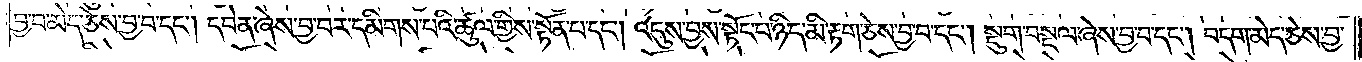བྱ་བ་མེད་ཅེས་བྱ་བ་དང༌། དབེན་ཞེས་བྱ་བར་དམིགས་པའི་ཚུལ་གྱིས་སྟོན་པ་དང༌། འདུས་བྱས་སྟོང་པ་ཉིད་མི་རྟག་ཅེས་བྱ་བ་དང༌། སྡུག་བསྔལ་ཞེས་བྱ་བ་དང༌། བདག་མེད་ཅེས་བྱ་
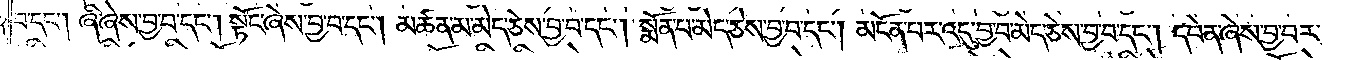བ་དང༌། ཞི་ཞེས་བྱ་བ་དང༌། སྟོང་ཞེས་བྱ་བ་དང༌། མཚན་མ་མེད་ཅེས་བྱ་བ་དང༌། སྨོན་པ་མེད་ཅེས་བྱ་བ་དང༌། མངོན་པར་འདུ་བྱ་བ་མེད་ཅེས་བྱ་བ་དང༌། དབེན་ཞེས་བྱ་བར་
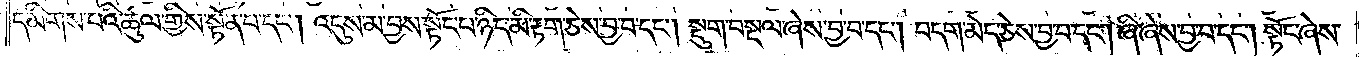དམིགས་པའི་ཚུལ་གྱིས་སྟོན་པ་དང༌། འདུས་མ་བྱས་སྟོང་པ་ཉིད་མི་རྟག་ཅེས་བྱ་བ་དང༌། སྡུག་བསྔལ་ཞེས་བྱ་བ་དང༌། བདག་མེད་ཅེས་བྱ་བ་དང༌། ཞི་ཞེས་བྱ་བ་དང༌། སྟོང་ཞེས་
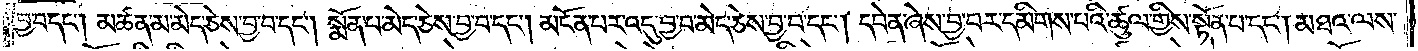བྱ་བ་དང༌། མཚན་མ་མེད་ཅེས་བྱ་བ་དང༌། སྨོན་པ་མེད་ཅེས་བྱ་བ་དང༌། མངོན་པར་འདུ་བྱ་བ་མེད་ཅེས་བྱ་བ་དང༌། དབེན་ཞེས་བྱ་བར་དམིགས་པའི་ཚུལ་གྱིས་སྟོན་པ་དང༌། མཐའ་ལས་
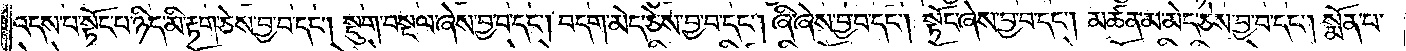འདས་པ་སྟོང་པ་ཉིད་མི་རྟག་ཅེས་བྱ་བ་དང༌། སྡུག་བསྔལ་ཞེས་བྱ་བ་དང༌། བདག་མེད་ཅེས་བྱ་བ་དང༌། ཞི་ཞེས་བྱ་བ་དང༌། སྟོང་ཞེས་བྱ་བ་དང༌། མཚན་མ་མེད་ཅེས་བྱ་བ་དང༌། སྨོན་པ་
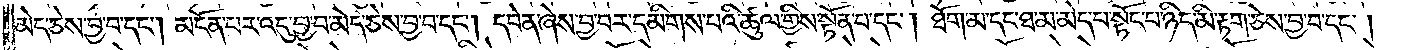མེད་ཅེས་བྱ་བ་དང༌། མངོན་པར་འདུ་བྱ་བ་མེད་ཅེས་བྱ་བ་དང༌། དབེན་ཞེས་བྱ་བར་དམིགས་པའི་ཚུལ་གྱིས་སྟོན་པ་དང༌། ཐོག་མ་དང་ཐ་མ་མེད་པ་སྟོང་པ་ཉིད་མི་རྟག་ཅེས་བྱ་བ་དང༌།
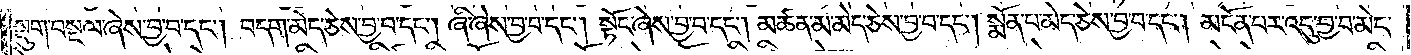སྡུག་བསྔལ་ཞེས་བྱ་བ་དང༌། བདག་མེད་ཅེས་བྱ་བ་དང༌། ཞི་ཞེས་བྱ་བ་དང༌། སྟོང་ཞེས་བྱ་བ་དང༌། མཚན་མ་མེད་ཅེས་བྱ་བ་དང༌། སྨོན་པ་མེད་ཅེས་བྱ་བ་དང༌། མངོན་པར་འདུ་བྱ་བ་མེད་
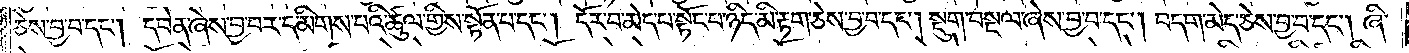ཅེས་བྱ་བ་དང༌། དབེན་ཞེས་བྱ་བར་དམིགས་པའི་ཚུལ་གྱིས་སྟོན་པ་དང༌། དོར་བ་མེད་པ་སྟོང་པ་ཉིད་མི་རྟག་ཅེས་བྱ་བ་དང༌། སྡུག་བསྔལ་ཞེས་བྱ་བ་དང༌། བདག་མེད་ཅེས་བྱ་བ་དང༌། ཞི་
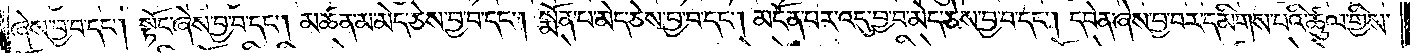ཞེས་བྱ་བ་དང༌། སྟོང་ཞེས་བྱ་བ་དང༌། མཚན་མ་མེད་ཅེས་བྱ་བ་དང༌། སྨོན་པ་མེད་ཅེས་བྱ་བ་དང༌། མངོན་པར་འདུ་བྱ་བ་མེད་ཅེས་བྱ་བ་དང༌། དབེན་ཞེས་བྱ་བར་དམིགས་པའི་ཚུལ་གྱིས་
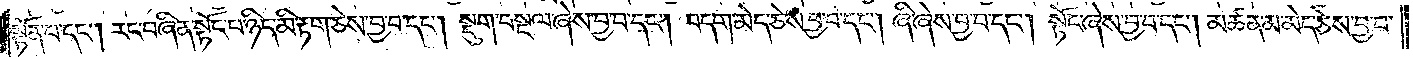སྟོན་པ་དང༌། རང་བཞིན་སྟོང་པ་ཉིད་མི་རྟག་ཅེས་བྱ་བ་དང༌། སྡུག་བསྔལ་ཞེས་བྱ་བ་དང༌། བདག་མེད་ཅེས་བྱ་བ་དང༌། ཞི་ཞེས་བྱ་བ་དང༌། སྟོང་ཞེས་བྱ་བ་དང༌། མཚན་མ་མེད་ཅེས་བྱ་བ་
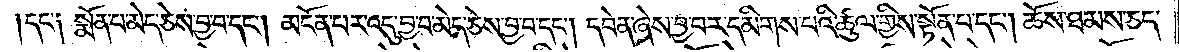དང༌། སྨོན་པ་མེད་ཅེས་བྱ་བ་དང༌། མངོན་པར་འདུ་བྱ་བ་མེད་ཅེས་བྱ་བ་དང༌། དབེན་ཞེས་བྱ་བར་དམིགས་པའི་ཚུལ་གྱིས་སྟོན་པ་དང༌། ཆོས་ཐམས་ཅད་
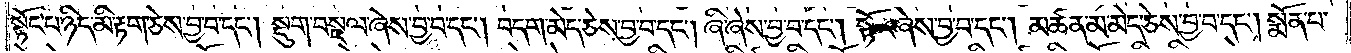སྟོང་པ་ཉིད་མི་རྟག་ཅེས་བྱ་བ་དང༌། སྡུག་བསྔལ་ཞེས་བྱ་བ་དང༌། བདག་མེད་ཅེས་བྱ་བ་དང༌། ཞི་ཞེས་བྱ་བ་དང༌། སྟོང་ཞེས་བྱ་བ་དང༌། མཚན་མ་མེད་ཅེས་བྱ་བ་དང༌། སྨོན་པ་
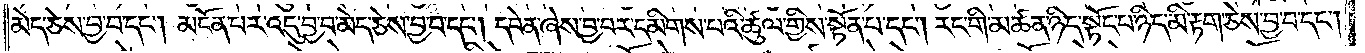མེད་ཅེས་བྱ་བ་དང༌། མངོན་པར་འདུ་བྱ་བ་མེད་ཅེས་བྱ་བ་དང༌། དབེན་ཞེས་བྱ་བར་དམིགས་པའི་ཚུལ་གྱིས་སྟོན་པ་དང༌། རང་གི་མཚན་ཉིད་སྟོང་པ་ཉིད་མི་རྟག་ཅེས་བྱ་བ་དང༌།
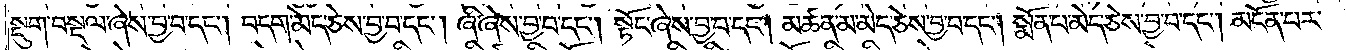སྡུག་བསྔལ་ཞེས་བྱ་བ་དང༌། བདག་མེད་ཅེས་བྱ་བ་དང༌། ཞི་ཞེས་བྱ་བ་དང༌། སྟོང་ཞེས་བྱ་བ་དང༌། མཚན་མ་མེད་ཅེས་བྱ་བ་དང༌། སྨོན་པ་མེད་ཅེས་བྱ་བ་དང༌། མངོན་པར་
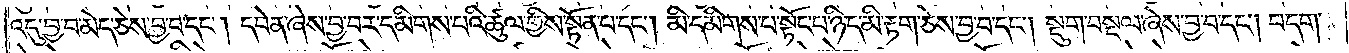འདུ་བྱ་བ་མེད་ཅེས་བྱ་བ་དང༌། དབེན་ཞེས་བྱ་བར་དམིགས་པའི་ཚུལ་གྱིས་སྟོན་པ་དང༌། མི་དམིགས་པ་སྟོང་པ་ཉིད་མི་རྟག་ཅེས་བྱ་བ་དང༌། སྡུག་བསྔལ་ཞེས་བྱ་བ་དང༌། བདག་
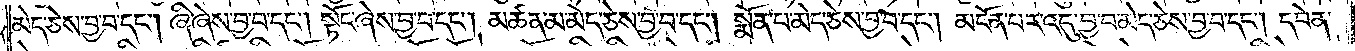མེད་ཅེས་བྱ་བ་དང༌། ཞི་ཞེས་བྱ་བ་དང༌། སྟོང་ཞེས་བྱ་བ་དང༌། མཚན་མ་མེད་ཅེས་བྱ་བ་དང༌། སྨོན་པ་མེད་ཅེས་བྱ་བ་དང༌། མངོན་པར་འདུ་བྱ་བ་མེད་ཅེས་བྱ་བ་དང༌། དབེན་
